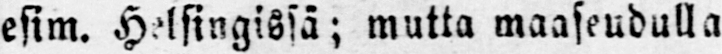esim. Helsingissä; mutta maaseudulla
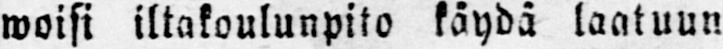woisi iltakoulunpito käydä laatuun
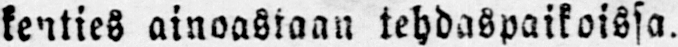kenties ainoastaan tehdaspaikoissa.
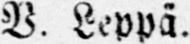V. Leppä.
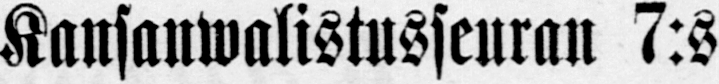Kansanwalistusseuran 7:s
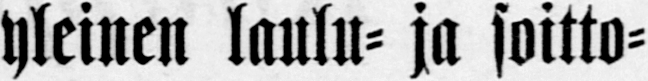yleinen laulu- ja soitto-
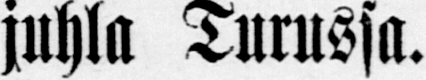juhla Turussa.
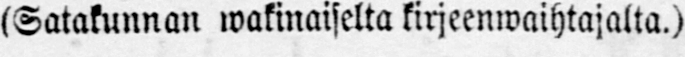(Satakunnan wakinaiselta kirjeenwaihtajalta.)
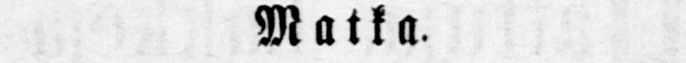Matka.
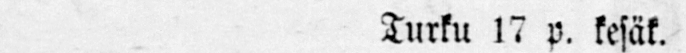Turku 17 p. kesäk.
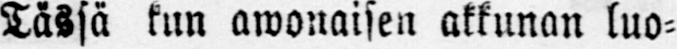Tässä kun awonaisen akkunan luo-
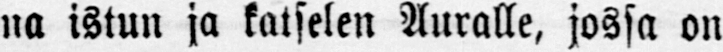na istun ja katselen Auralle, jossa on
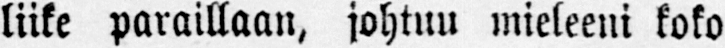liike paroillaan, johtuu mieleeni koko
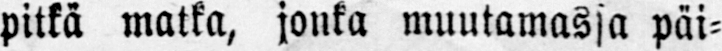pitkä matka, jonka muutamassa päi-
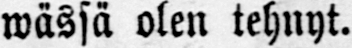wässä olen tehnyt.
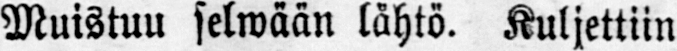Muistuu selwään lähtö. Kuljettiin
